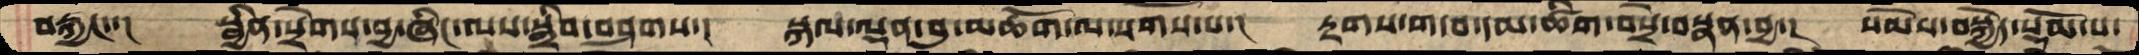བརྐྱང་་།  སྦྱིན་སྲེགས་བྱ་ཞིང་ལས་སྒྲིབ་བཤགས་།  སྐལ་ལྡན་བུ་མཆོག་ལ་སོགས་པ་།  རྟགས་གདབ་དམ་ཚིག་བསྲེ་བསྣན་བྱ་།  སེམས་བསྐྱེད་སྡོམ་པ་
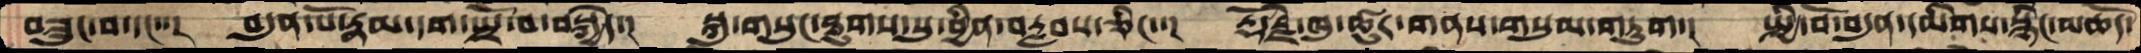བཟུང་བ་དང་་།  བདུན་པོ་རྣམ་དག་སྤྲོ་བ་བསྐྱེད་།  སྐུ་གསུང་ཐུགས་སུ་བྱིན་བརླབས་ཅིང་་།  རྡོ་རྗེ་ཁུ་ཚུར་གནས་གསུམ་གཏུག་།  སྤྱི་བོ་བདུན་དམིགས་སྙིང་མཆོད་
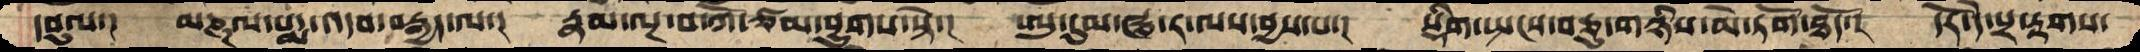དབུལ་།  མཎྜལ་པདྨ་འདབ་བརྒྱད་ལ་།  རྣམ་ལྔ་བ་ཀོ་ཙམ་བྱུགས་སྟེ་།  ཨུ་དུམ་ཝ་ར་ལས་བྱས་པ་།  སྡིག་སྤངས་བཅུ་གཉིས་མེ་ཏོག་ཐོད་།  དོར་དེ་པྲ་རྟགས་
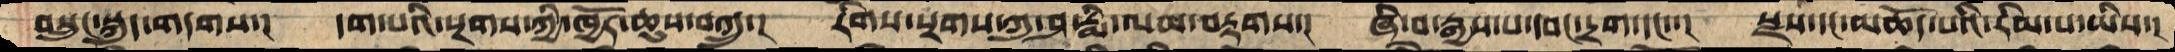བསྲུང་སྐུད་གདགས་།  དག་པའི་སྔགས་ཀྱི་ཁྱོརཆུས་བཀྲུ་།  རིགས་སྔགས་ཀུ་ཤ་རྨི་ལམ་བརྟགས་།  ཞི་བ་རྒྱས་པ་དབང་དྲག་དང་་།  སྫས་དང་མཆོད་པའི་རིམ་པ་ཡིས་།
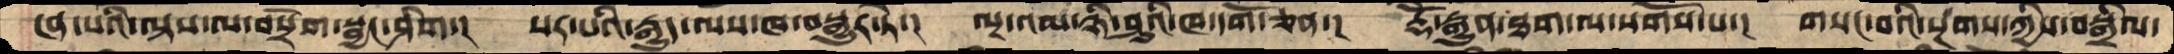ངན་པའི་ལྟས་ལ་བསྲེག་སྦྱང་ཤིག་།  སར་པའི་རྒྱུད་ལས་ཁ་བསྒྱུར་སྟེ་།  ལྔ་འམ་ཉི་ཤུའི་ཁ་དོག་ཅན་།  རྡོེ་རྒྱུན་ཐག་ལ་སོགས་པ་།  གསང་བའི་སྔགས་ཀྱིས་བསྒྲིལ་
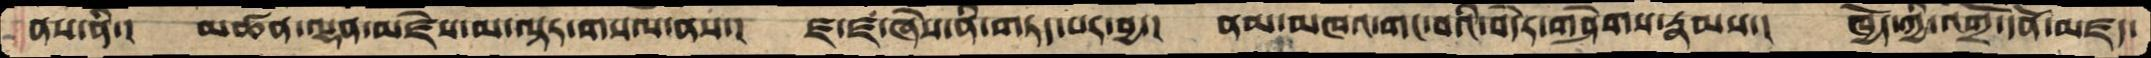ནས་ནི་།  མཚན་ལྡན་མཛེས་མ་ལྟར་གསལ་ནས་།  ཛ་ཛ་ཞེས་ནི་གཏད་པར་བྱ་།  ནམ་མཁའ་གང་བའི་བདེར་གཤེགས་རྣམས་།   ཁྱོད་ཀྱི་འགྲོ་དོན་མཛད་
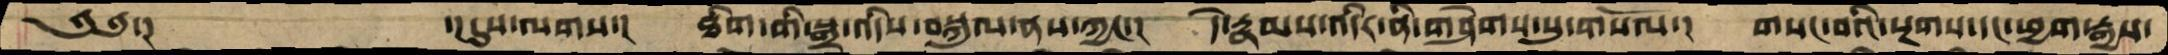༄༅་།          ་།དུས་ལགས་།   ཐིག་གི་སྒྲ་འདིས་བསྐུལ་ནས་ཀྱང་།  དེ་རྣམས་འདིར་ནི་གཤེགས་སུ་གསོལ་།  གསང་བའི་སྔགས་དང་ཕྱག་རྒྱས་
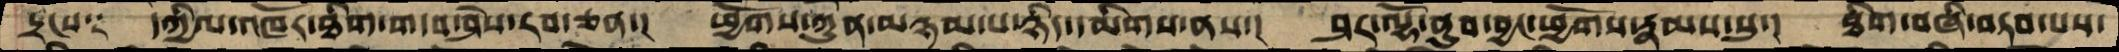དྲངས༑  དཀྱིལ་འཁོར་ཐིག་གདབ་ཤེས་རབ་ཅན་།  ཕྱོགས་ཀུན་མཉམ་པ་ཉིད་དམིགས་ནས་།  ཤར་ལྷོ་ནུབ་བྱང་ཕྱོགས་རྣམས་སུ་།  ཐིག་བཞི་བཏབ་པས་
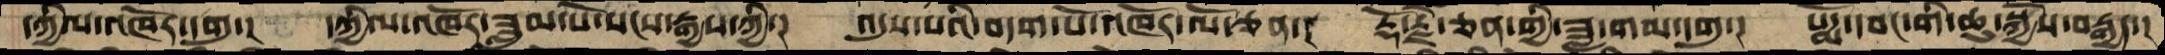དཀྱིལ་འཁོར་དགུ་།  དཀྱིལ་འཁོར་ཟླུམ་པོ་སངས་རྒྱས་ཀྱི་།  འདུས་པའི་བདག་པོ་འཁོར་ལོ་ཅན་།  རྡོ་རྗེ་ཅན་གྱི་ཟླ་གམ་དགུ་།  པདྨོ་དབང་གི་ཆུ་སྐྱེས་བརྒྱད་།
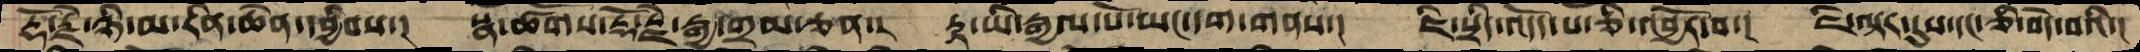རྡོ་རྗེ་ཉི་མ་རིན་ཆེན་དབྱིབས་།  སྣ་ཚོགས་རྡོ་རྗེ་རྒྱ་གྲམ་ཅན་།  རྟ་ཡི་རྒྱལ་པོ་ཡང་དག་གནས་།  ཇི་སྲིད་འདོད་པ་ཅི་འབྱོར་བ་།  ཇི་ལྟར་དུས་དང་ཅི་བདེ་བའི་།
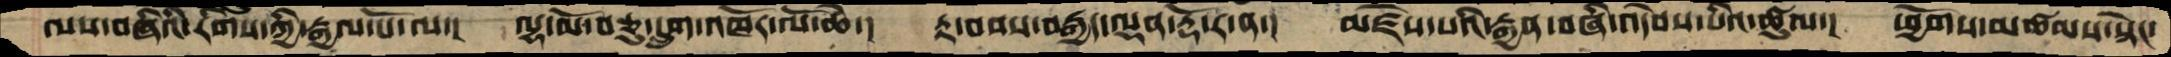ལས་བཞིའི་རིགས་ཀྱི་རྒྱལ་པོ་ལ་།  ལྷ་མོ་བཅུ་དྲུག་འཁོར་ལོ་ཆེ་།  རྟ་བབས་བརྒྱད་ལྡན་རྡོ་ར་ན་།  མཛེས་པའི་རྒྱན་བཞི་འདེབས་པའི་ཚུལ་།  ཕྱོགས་མཚམས་སྟེང་
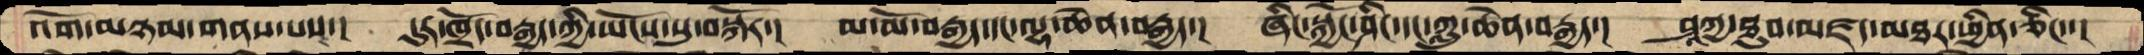འོག་མཉམ་གནས་པས་།  དུར་ཁྲོད་བརྒྱད་ཀྱི་ཡོངས་སུ་བསྐོར་།  མ་མོ་བརྒྱད་དང་ལྷ་ཆེན་བརྒྱད་།  ཞིང་སྐྱོང་ཤིང་དང་ཀླུ་ཆེན་བརྒྱད་།  ཤཱཀྱ་ཐུབ་མཛད་མཐར་ཕྱིན་ཅིང་་།
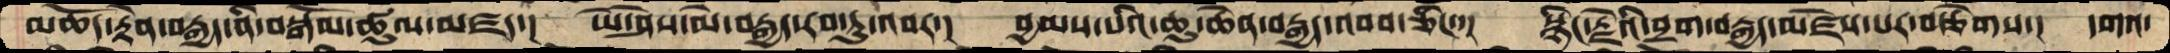མཆོད་རྟེན་བརྒྱད་ནི་བསྒོམ་ཚུལ་མཛད་།  ཡེ་ཤེས་མེ་བརྒྱད་རབ་ཏུ་འབར་།  བྱམས་པའི་ཆུ་ཆེན་བརྒྱད་འབབ་ཅིང་་།  སྙིང་རྗེའི་བྲག་བརྒྱད་མཛེས་པར་བརྩེགས་།  དགའ་
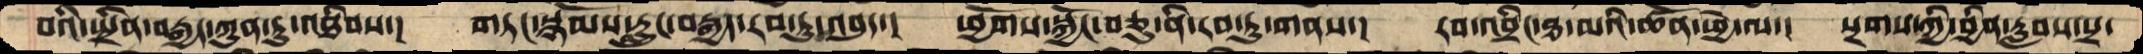བའི་སྤྲིན་བརྒྱད་ཀུན་ཏུ་འཐིབས་།  གཏང་སྙོམས་རླུང་བརྒྱད་རབ་ཏུ་འབུད་།  ཕྱོགས་སྐྱོང་བཅུ་ནི་རབ་ཏུ་གནས་།  རབ་འབྲིང་ཐ་མའི་ཚོན་ཕྱེ་ལ་།  སྔགས་ཀྱི་བྱིན་རླབས་སྲ་
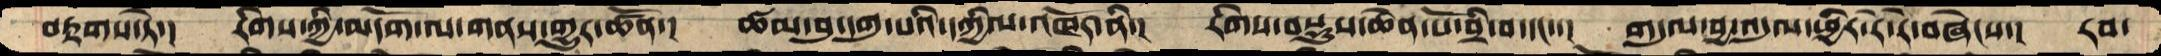བརྟགས་ཏེ་།  རིགས་ཀྱི་མདོག་ལ་གནས་གྱུར་ཚོན་།  ཚམ་བུ་དགུ་པའི་དཀྱིལ་འཁོར་ནི་།  རིགས་བསྡུས་ཆེན་པོ་བྲི་བ་དང་་།  གདུལ་བྱ་འདུལ་ཕྱིར་རེ་རེ་བཞེངས་།  རབ་
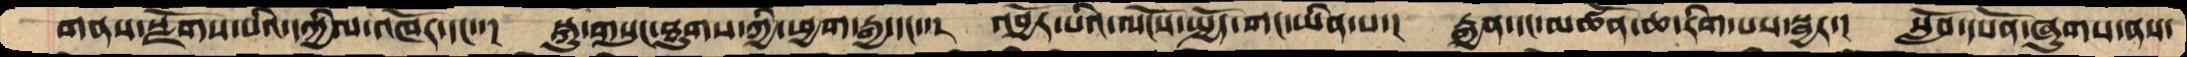གནས་སྫོགས་པའི་དཀྱིལ་འཁོར་དང་་།  སྐུ་གསུང་ཐུགས་ཀྱི་ཕྱག་རྒྱ་དང་་།  འབྱོར་པའི་ལོངས་སྤྱོད་གང་ཡིན་པ་།  རྒྱན་དང་མཚོན་ཆ་རིག་པས་སྦྱར་།  སློབ་དཔོན་ཞུགས་ནས་
